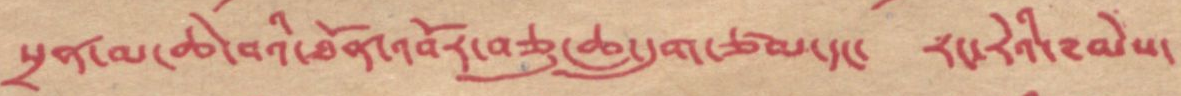སྲན་མ་ཆེ་བའི་ཐོན་འབོར་བཅུ་ཆ་དྲུག་ཙམ་དང་ རང་རེའི་༸མེས་
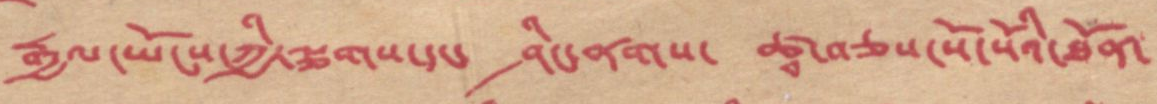རྒྱལ་ཡོངས་ཀྱི་ལྕགས་དང་ ཤིང་ནགས་ ཚྭ་བཅས་སོ་སོའི་ཐོན་
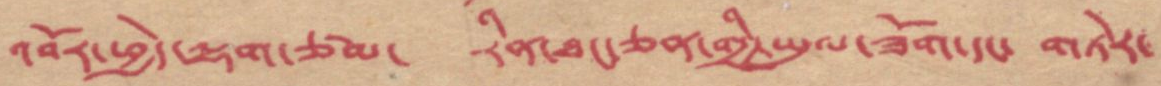འབོར་ཕྱེད་ལྷག་ཙམ་ རིན་ཐང་ཅན་གྱི་ཡུལ་ཟོག་དང་ གཏེར་
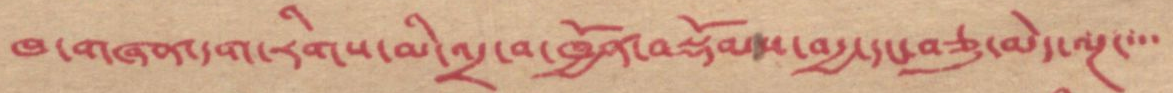ཁ་གཞག་དག་རིགས་མི་འདྲ་བ་ཁྱོན་བསྡོམས་བརྒྱ་དང་བཅུ་མེད་ལྔ་་་
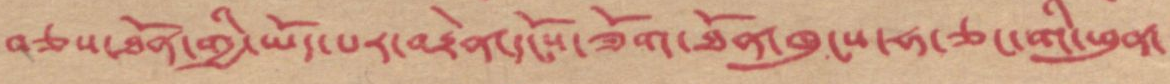བཅས་ཐོན་གྱི་ཡོད་པར་བརྟེན་དངོས་ཟོག་ཁུངས་ཧ་ཅང་གི་ཕུན་
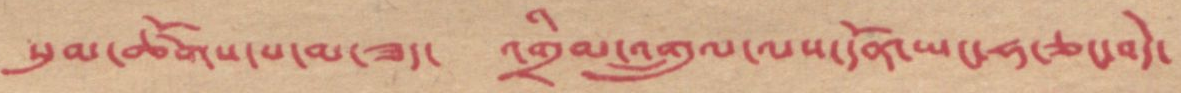སུམ་ཚོགས་པ་མ་ཟད་ འགྲིམས་འགྲུལ་ལས་དོན་ཡང་ཧ་ཅང་བདེ་
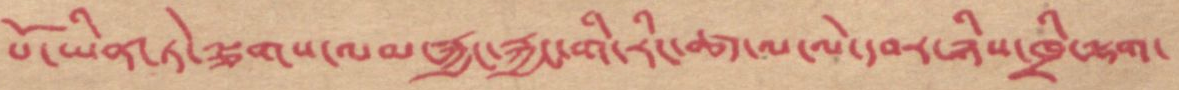པོ་ཡིན་ཏེ་ལྕགས་ལམ་རྐྱང་རྐྱང་གི་རིང་ཚད་ལ་ལེ་དབར་ཉིས་ཁྲི་ལྷག་
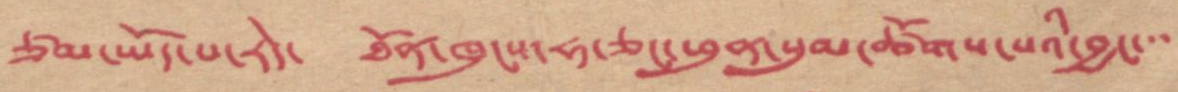ཙམ་ཡོད་པ་རེད་ ཐོན་ཁུངས་ཧ་ཅང་ཕུན་སུམ་ཚོགས་པའི་བྱང་་་
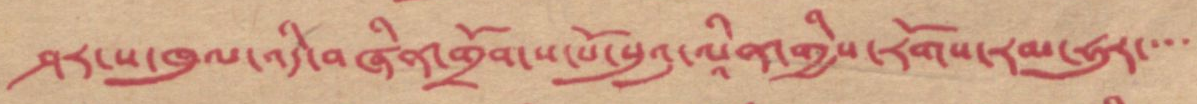ཤར་ས་ཁུལ་འདི་བཞིན་གྲོགས་པོ་སུའུ་ལཱིན་གྱིས་རོགས་རམ་ཧུར་་་་
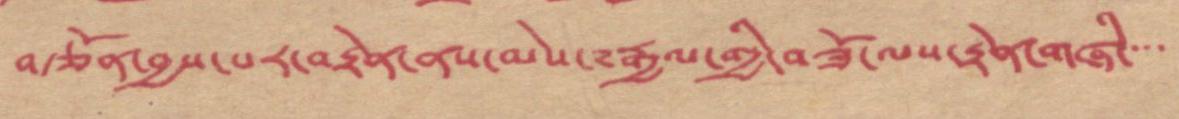བརྩོན་བྱས་པར་བརྟེན་ནས་མེས་༸རྒྱལ་གྱི་བཟོ་ལས་རྟེན་གཞི་་་་
